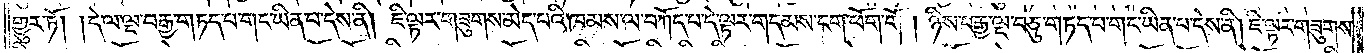གྱུར་ཏོ། །དེ་ལ་ལྔ་བརྒྱ་གཏད་པ་གང་ཡིན་པ་དེས་ནི། ཇི་ལྟར་གཟུགས་མེད་པའི་ཁམས་ལ་བཀོད་པ་དེ་ལྟར་གདམས་ངག་ཕོག་གོ །ཉིས་བརྒྱ་ལྔ་བཅུ་གཏད་པ་གང་ཡིན་པ་དེས་ནི། ཇི་ལྟར་གཟུགས་
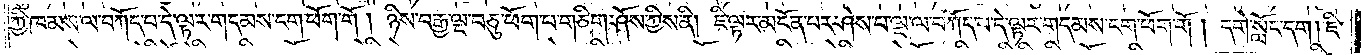ཀྱི་ཁམས་ལ་བཀོད་པ་དེ་ལྟར་གདམས་ངག་ཕོག་གོ །ཉིས་བརྒྱ་ལྔ་བཅུ་ཕོག་པ་གཅིག་ཤོས་ཀྱིས་ནི། ཇི་ལྟར་མངོན་པར་ཤེས་པ་ལྔ་ལ་བཀོད་པ་དེ་ལྟར་གདམས་ངག་ཕོག་གོ །དགེ་སློང་དག །ཇི་
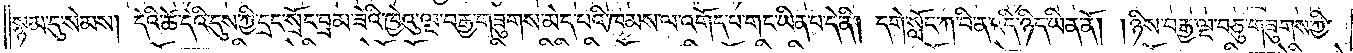སྙམ་དུ་སེམས། དེའི་ཚེ་དེའི་དུས་ཀྱི་དྲང་སྲོང་བྲམ་ཟེའི་ཁྱེའུ་ལྔ་བརྒྱ་གཟུགས་མེད་པའི་ཁམས་ལ་འགོད་པ་གང་ཡིན་པ་དེ་ནི། དགེ་སློང་ཀ་བི་ན་འདི་ཉིད་ཡིན་ནོ། །ཉིས་བརྒྱ་ལྔ་བཅུ་གཟུགས་ཀྱི་
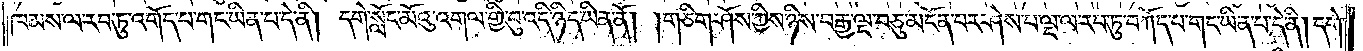ཁམས་ལ་རབ་ཏུ་འགོད་པ་གང་ཡིན་པ་དེ་ནི། དགེ་སློང་མོའུ་འགལ་གྱི་བུ་འདི་ཉིད་ཡིན་ནོ། །གཅིག་ཤོས་ཀྱིས་ཉིས་བརྒྱ་ལྔ་བཅུ་མངོན་པར་ཤེས་པ་ལྔ་ལ་རབ་ཏུ་བཀོད་པ་གང་ཡིན་པ་དེ་ནི། དགེ་
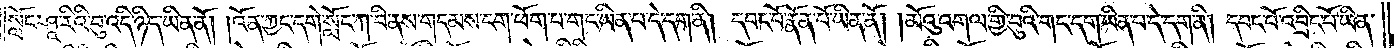སློང་ཤཱ་རིའི་བུ་འདི་ཉིད་ཡིན་ནོ། །འོན་ཀྱང་དགེ་སློང་ཀ་བི་ནས་གདམས་ངག་ཕོག་པ་གང་ཡིན་པ་དེ་དག་ནི། དབང་པོ་རྣོན་པོ་ཡིན་ནོ། །མོའུ་འགལ་གྱི་བུའི་གང་དག་ཡིན་པ་དེ་དག་ནི། དབང་པོ་འབྲིང་པོ་ཡིན་
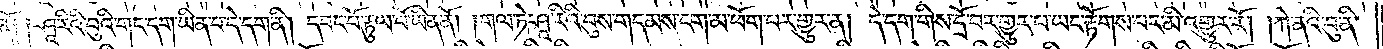ནོ༑ ༑ཤཱ་རིའི་བུའི་གང་དག་ཡིན་པ་དེ་དག་ནི། དབང་པོ་རྟུལ་པོ་ཡིན་ནོ། །གལ་ཏེ་ཤཱ་རིའི་བུས་གདམས་ངག་མ་ཕོག་པར་གྱུར་ན། དེ་དག་གིས་དྲོ་བར་གྱུར་པ་ཡང་རྟོགས་པར་མི་འགྱུར་རོ། །ཀེ་ནའི་བུ་ནི་
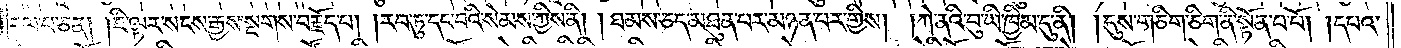རལ་པ་ཅན། །ཇི་ལྟར་སངས་རྒྱས་སྔགས་བརྗོད་པ། །རབ་ཏུ་དང་བའི་སེམས་ཀྱིས་ནི། །ཐམས་ཅད་མཐུན་པར་མཉན་པར་གྱིས། །ཀེ་ནའི་བུ་ཡི་ཁྱིམ་དུ་ནི། །དུས་གཅིག་ཅིག་ནི་སྟོན་པ་པོ། །དཔའ་
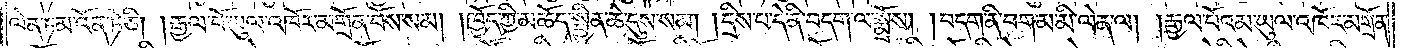ལེན་ཏམ་འོན་ཏེ་ཅི། །རྒྱལ་པོ་ཡུལ་འཁོར་མགྲོན་བོས་སམ། །ཁྱོད་ཀྱི་མཆོད་སྦྱིན་ཆེ་དུས་སམ། །དྲིས་པ་དེ་ནི་བདག་ལ་སྨྲོས། །བདག་ནི་བག་མ་མི་ལེན་ལ། །རྒྱལ་པོའམ་ཡུལ་འཁོར་མགྲོན་
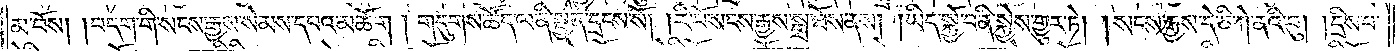མ་བོས། །བདག་གིས་སངས་རྒྱས་སེམས་དཔའ་མཆོག །གདུགས་ཚོད་ལ་ནི་སྤྱན་དྲངས་སོ། །རི་བོ་སངས་རྒྱས་སྒྲ་ཐོས་ནས། །ཡིད་སྐྱོ་བ་ནི་སྐྱེས་གྱུར་ཏེ། །སངས་རྒྱས་དེ་ཅི་ཀེ་ནའི་བུ། །དྲིས་པ་
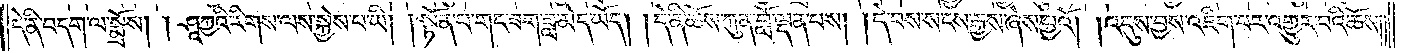དེ་ནི་བདག་ལ་སྨྲོས། །ཤཱཀྱའི་རིགས་ལས་སྐྱེས་པ་ཡི། །སྟོན་པ་གང་ཟག་ཟླ་མེད་ཡོད། །དེ་ནི་ཆོས་ཀུན་བློ་ལྡན་པས། །དེ་བས་སངས་རྒྱས་ཞེས་བྱའོ། །འདུས་བྱས་འཇིག་པར་འགྱུར་བའི་ཆོས། །
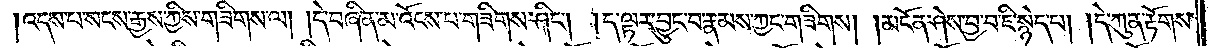།འདས་པ་སངས་རྒྱས་ཀྱིས་གཟིགས་ལ། །དེ་བཞིན་མ་འོངས་པ་གཟིགས་ཤིང༌། །ད་ལྟར་བྱུང་བ་རྣམས་ཀྱང་གཟིགས། །མངོན་ཤེས་བྱ་བ་ཇི་སྙེད་པ། །དེ་ཀུན་རྟོགས་
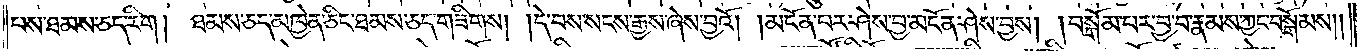པས་ཐམས་ཅད་རིག །ཐམས་ཅད་མཁྱེན་ཅིང་ཐམས་ཅད་གཟིགས། །དེ་བས་སངས་རྒྱས་ཞེས་བྱའོ། །མངོན་པར་ཤེས་བྱ་མངོན་ཤེས་བྱས། །བསྒོམ་པར་བྱ་བ་རྣམས་ཀྱང་བསྒོམས། །
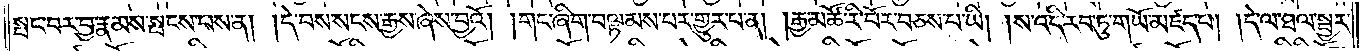སྤང་བར་བྱ་རྣམས་སྤངས་པས་ན། །དེ་བས་སངས་རྒྱས་ཞེས་བྱའོ། །གང་ཞིག་བལྟམས་པར་གྱུར་པ་ན། །རྒྱ་མཚོ་རི་བོར་བཅས་པ་ཡི། །ས་འདི་རབ་ཏུ་གཡོ་མཛད་པ། །དེ་ལ་ཐལ་སྦྱར་
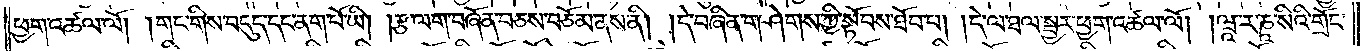ཕྱག་འཚལ་ལོ། །གང་གིས་བདུད་དང་ནག་པོ་ཡི། །རྩ་ལག་བཞོན་བཅས་བཅོམ་ནས་ནི། །དེ་བཞིན་གཤེགས་ཀྱི་སྟོབས་ཐོབ་པ། །དེ་ལ་ཐལ་སྦྱར་ཕྱག་འཚལ་ལོ། །ཝཱ་ར་ཎཱ་སིའི་གྲོང་
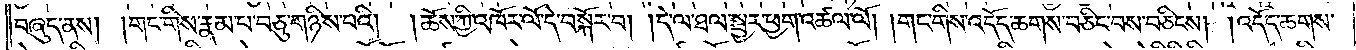བཞུད་ནས། །གང་གིས་རྣམ་པ་བཅུ་གཉིས་པའི།   །ཆོས་ཀྱི་འཁོར་ལོ་དེ་བསྐོར་བ། །དེ་ལ་ཐལ་སྦྱར་ཕྱག་འཚལ་ལོ། །གང་གིས་འདོད་ཆགས་བཅིང་བས་བཅིངས། །འདོད་ཆགས་
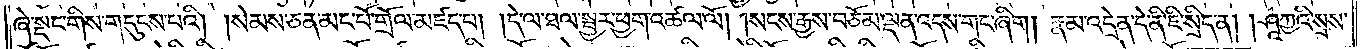ཞེ་སྡང་གིས་གདུངས་པའི། །སེམས་ཅན་མང་པོ་གྲོལ་མཛད་པ། །དེ་ལ་ཐལ་སྦྱར་ཕྱག་འཚལ་ལོ། །སངས་རྒྱས་བཅོམ་ལྡན་འདས་གང་ཞིག །རྣམ་འདྲེན་དེ་ནི་ཇི་སྲིད་ན། །ཤཱཀྱའི་སྲས་
